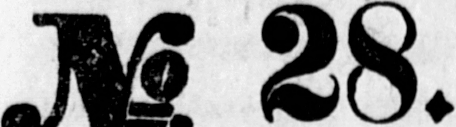No. 28.
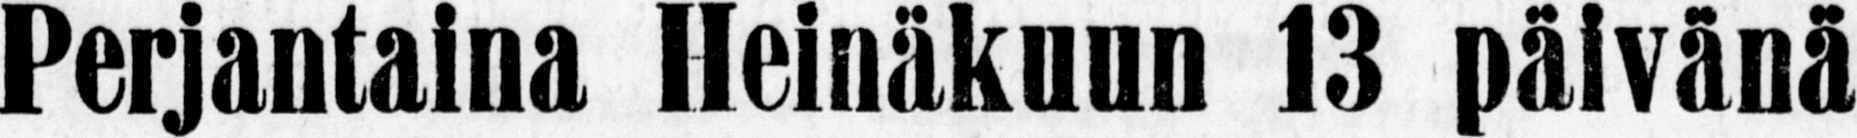Perjantaina Heinäkuun 13 päivänä
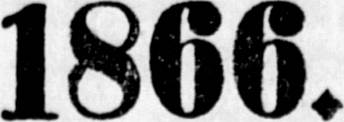1866.
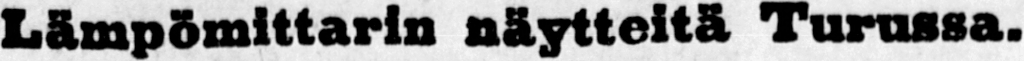L ämpömittarin Turussa.
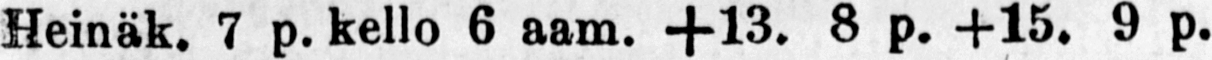Heinäk. 7 p. kello 6 aam. +13. 8 p. +15. 9 p.
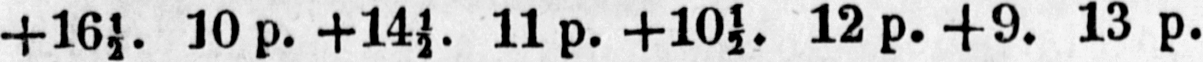+16½. lO p. +14½. 11p. +10½. 12p.+9. 13 p.
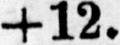+12.
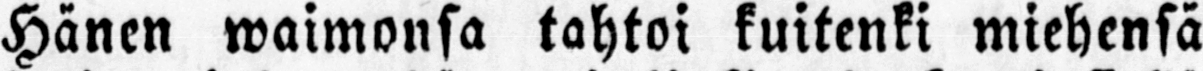Hänen waimonsa tahtoi kuitenki miehensä
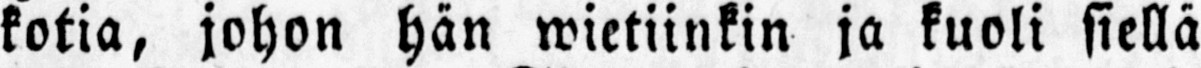kotia, johon hän wietiinkin ja kuoli siellä
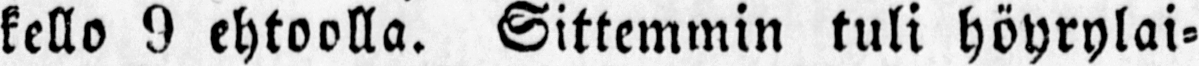kello 9 ehtoolla. Sittemmin tuli höyrylai-
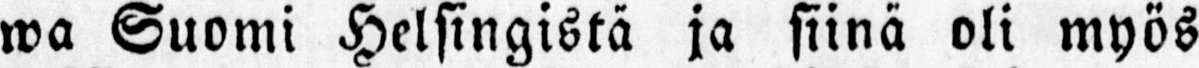wa Suomi Helsingistä ja siinä oli myös
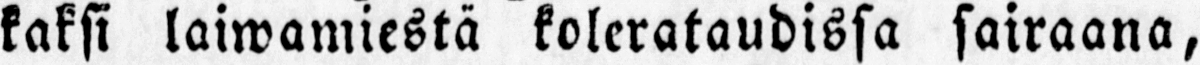kaksi laiwamiestä kolerataudissa sairaana,
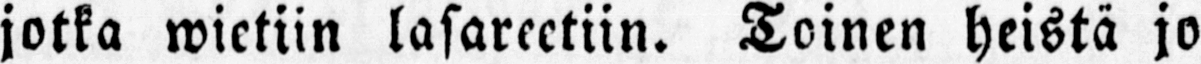jotka wietiin lasareetiin. Toinen heistä jo
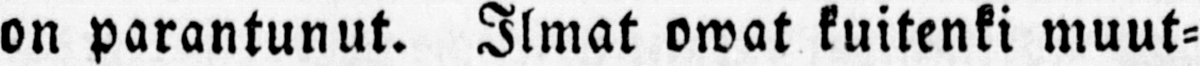on parantunut. Ilmat owat kuitenki muut-
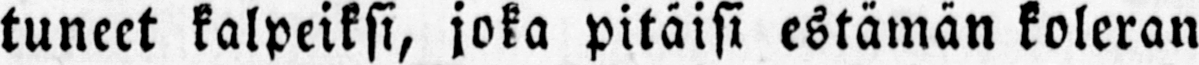tuneet kalpeiksi, joka pitäisi estämän koleran
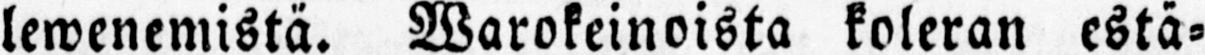lewenemistä. Warokeinoista koleran estä-
